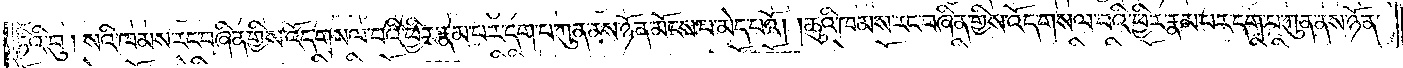ཏིའི་བུ། སའི་ཁམས་རང་བཞིན་གྱིས་འོད་གསལ་བའི་ཕྱིར་རྣམ་པར་དག་པ་ཀུན་ནས་ཉོན་མོངས་པ་མེད་པའོ། །ཆུའི་ཁམས་རང་བཞིན་གྱིས་འོད་གསལ་བའི་ཕྱིར་རྣམ་པར་དག་པ་ཀུན་ནས་ཉོན་
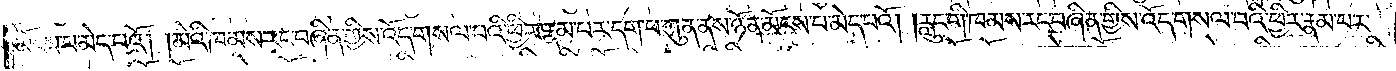མོངས་པ་མེད་པའོ། །མེའི་ཁམས་རང་བཞིན་གྱིས་འོད་གསལ་བའི་ཕྱིར་རྣམ་པར་དག་པ་ཀུན་ནས་ཉོན་མོངས་པ་མེད་པའོ། །རླུང་གི་ཁམས་རང་བཞིན་གྱིས་འོད་གསལ་བའི་ཕྱིར་རྣམ་པར་
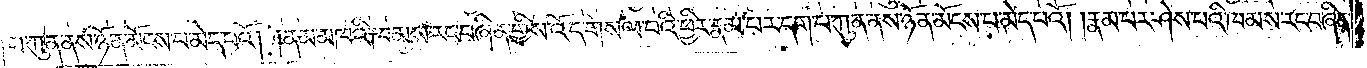དག་པ་ཀུན་ནས་ཉོན་མོངས་པ་མེད་པའོ། །ནམ་མཁའི་ཁམས་རང་བཞིན་གྱིས་འོད་གསལ་བའི་ཕྱིར་རྣམ་པར་དག་པ་ཀུན་ནས་ཉོན་མོངས་པ་མེད་པའོ། །རྣམ་པར་ཤེས་པའི་ཁམས་རང་བཞིན་
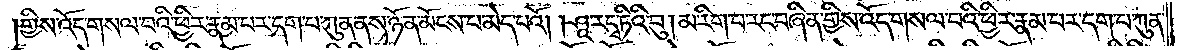གྱིས་འོད་གསལ་བའི་ཕྱིར་རྣམ་པར་དག་པ་ཀུན་ནས་ཉོན་མོངས་པ་མེད་པའོ། །ཤཱ་ར་དྭ་ཏིའི་བུ། མ་རིག་པ་རང་བཞིན་གྱིས་འོད་གསལ་བའི་ཕྱིར་རྣམ་པར་དག་པ་ཀུན་
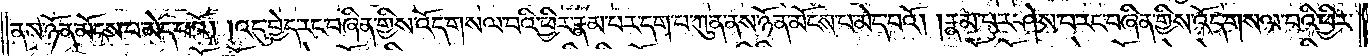ནས་ཉོན་མོངས་པ་མེད་པའོ། །འདུ་བྱེད་རང་བཞིན་གྱིས་འོད་གསལ་བའི་ཕྱིར་རྣམ་པར་དག་པ་ཀུན་ནས་ཉོན་མོངས་པ་མེད་པའོ། །རྣམ་པར་ཤེས་པ་རང་བཞིན་གྱིས་འོད་གསལ་བའི་ཕྱིར་
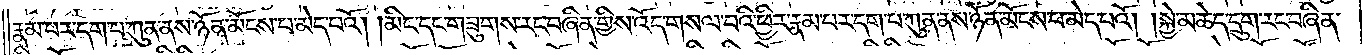རྣམ་པར་དག་པ་ཀུན་ནས་ཉོན་མོངས་པ་མེད་པའོ། །མིང་དང་གཟུགས་རང་བཞིན་གྱིས་འོད་གསལ་བའི་ཕྱིར་རྣམ་པར་དག་པ་ཀུན་ནས་ཉོན་མོངས་པ་མེད་པའོ། །སྐྱེ་མཆེད་དྲུག་རང་བཞིན་
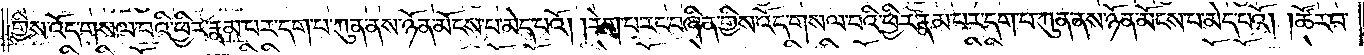གྱིས་འོད་གསལ་བའི་ཕྱིར་རྣམ་པར་དག་པ་ཀུན་ནས་ཉོན་མོངས་པ་མེད་པའོ། །རེག་པ་རང་བཞིན་གྱིས་འོད་གསལ་བའི་ཕྱིར་རྣམ་པར་དག་པ་ཀུན་ནས་ཉོན་མོངས་པ་མེད་པའོ། །ཚོར་བ་
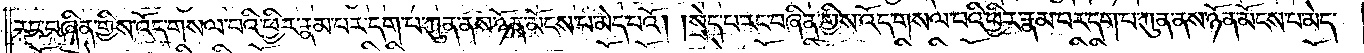རང་བཞིན་གྱིས་འོད་གསལ་བའི་ཕྱིར་རྣམ་པར་དག་པ་ཀུན་ནས་ཉོན་མོངས་པ་མེད་པའོ། །སྲེད་པ་རང་བཞིན་གྱིས་འོད་གསལ་བའི་ཕྱིར་རྣམ་པར་དག་པ་ཀུན་ནས་ཉོན་མོངས་པ་མེད་
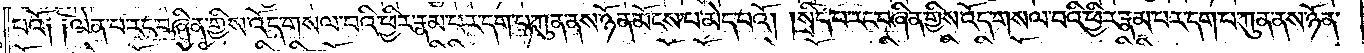པའོ༑ ༑ལེན་པ་རང་བཞིན་གྱིས་འོད་གསལ་བའི་ཕྱིར་རྣམ་པར་དག་པ་ཀུན་ནས་ཉོན་མོངས་པ་མེད་པའོ། །སྲིད་པ་རང་བཞིན་གྱིས་འོད་གསལ་བའི་ཕྱིར་རྣམ་པར་དག་པ་ཀུན་ནས་ཉོན་
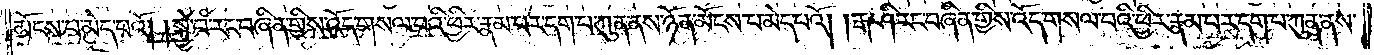མོངས་པ་མེད་པའོ། །སྐྱེ་བ་རང་བཞིན་གྱིས་འོད་གསལ་བའི་ཕྱིར་རྣམ་པར་དག་པ་ཀུན་ནས་ཉོན་མོངས་པ་མེད་པའོ། །རྒ་ཤི་རང་བཞིན་གྱིས་འོད་གསལ་བའི་ཕྱིར་རྣམ་པར་དག་པ་ཀུན་ནས་
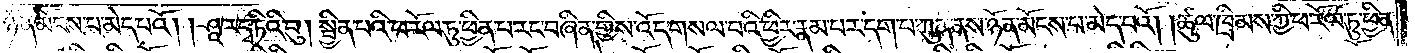ཉོན་མོངས་པ་མེད་པའོ། །ཤཱ་ར་དྭ་ཏིའི་བུ། སྦྱིན་པའི་ཕ་རོལ་ཏུ་ཕྱིན་པ་རང་བཞིན་གྱིས་འོད་གསལ་བའི་ཕྱིར་རྣམ་པར་དག་པ་ཀུན་ནས་ཉོན་མོངས་པ་མེད་པའོ། །ཚུལ་ཁྲིམས་ཀྱི་ཕ་རོལ་ཏུ་ཕྱིན་
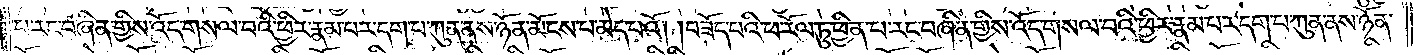པ་རང་བཞིན་གྱིས་འོད་གསལ་བའི་ཕྱིར་རྣམ་པར་དག་པ་ཀུན་ནས་ཉོན་མོངས་པ་མེད་པའོ། །བཟོད་པའི་ཕ་རོལ་ཏུ་ཕྱིན་པ་རང་བཞིན་གྱིས་འོད་གསལ་བའི་ཕྱིར་རྣམ་པར་དག་པ་ཀུན་ནས་ཉོན་
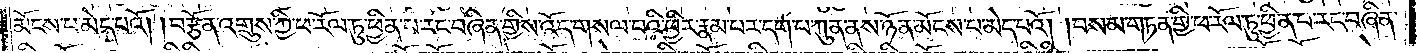མོངས་པ་མེད་པའོ། །བརྩོན་འགྲུས་ཀྱི་ཕ་རོལ་ཏུ་ཕྱིན་པ་རང་བཞིན་གྱིས་འོད་གསལ་བའི་ཕྱིར་རྣམ་པར་དག་པ་ཀུན་ནས་ཉོན་མོངས་པ་མེད་པའོ། །བསམ་གཏན་གྱི་ཕ་རོལ་ཏུ་ཕྱིན་པ་རང་བཞིན་
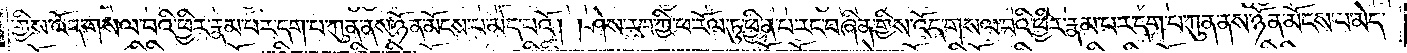གྱིས་འོད་གསལ་བའི་ཕྱིར་རྣམ་པར་དག་པ་ཀུན་ནས་ཉོན་མོངས་པ་མེད་པའོ། །ཤེས་རབ་ཀྱི་ཕ་རོལ་ཏུ་ཕྱིན་པ་རང་བཞིན་གྱིས་འོད་གསལ་བའི་ཕྱིར་རྣམ་པར་དག་པ་ཀུན་ནས་ཉོན་མོངས་པ་མེད་
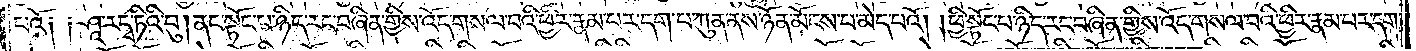པའོ༑ ༑ཤཱ་ར་དྭ་ཏིའི་བུ། ནང་སྟོང་པ་ཉིད་རང་བཞིན་གྱིས་འོད་གསལ་བའི་ཕྱིར་རྣམ་པར་དག་པ་ཀུན་ནས་ཉོན་མོངས་པ་མེད་པའོ། །ཕྱི་སྟོང་པ་ཉིད་རང་བཞིན་གྱིས་འོད་གསལ་བའི་ཕྱིར་རྣམ་པར་དག་
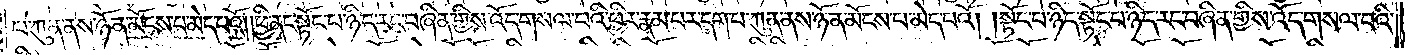པ་ཀུན་ནས་ཉོན་མོངས་པ་མེད་པའོ། །ཕྱི་ནང་སྟོང་པ་ཉིད་རང་བཞིན་གྱིས་འོད་གསལ་བའི་ཕྱིར་རྣམ་པར་དག་པ་ཀུན་ནས་ཉོན་མོངས་པ་མེད་པའོ། །སྟོང་པ་ཉིད་སྟོང་པ་ཉིད་རང་བཞིན་གྱིས་འོད་གསལ་བའི་
